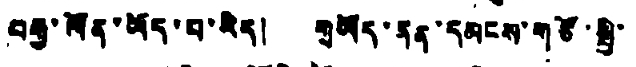བརྒྱ་ལོན་ཡོད་པ་རེད། གཡོད་ནན་དམངས་གཙོ་སྤྱི་
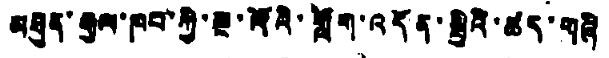མཐུན་རྒྱལ་ཁབ་ཀྱི་སྔ་ལོའི་གློག་འདོན་སྤྱིའི་ཚད་གཞི
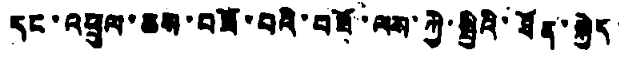དང་འཕྲུལ་ཆས་བཟོ་བའི་བཟོ་ལས་ཀྱི་སྤྱིའི་ཐོན་སྐྱེད་
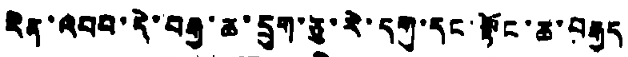རིན་འབབ་དེ་བརྒྱ་ཆ་དྲུག་ཅུ་རེ་དགུ་དང་སྟོང་ཆ་བརྒྱད
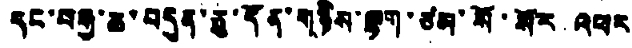དང་བརྒྱ་ཆ་བདུན་ཅུ་དོན་གཉིས་ལྷག་ཙམ་སོ་སོར འཕར
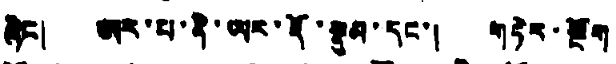ཞིང། ཨར་པ་ནི་ཡར་རྡོ་སྣུམ་དང་། གཏེར་སྔོག
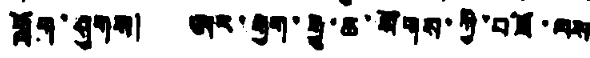གློག་ཤུགས། ཨར་རྒྱག་རྒྱུ་ཆ་སོགས་ཀྱི་བཟོ་ལས
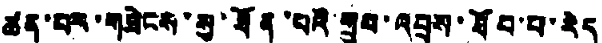ཚན་པར་གཟེངས་སུ་ཐོན་པའི་གྲུབ་འབྲས་ཐོབ་པ་རེད།
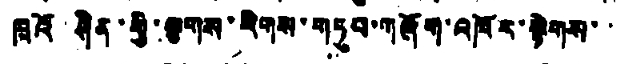ཁྲའོ་ཤིན་གྱི་ལྕགས་རིགས་གཏུབ་གཞོག་འཁོར་སྟེགས་་
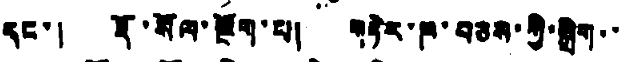དང་། རྡོ་སོལ་སྔོག་པ། གཏེར་ཁ་བཅས་ཀྱི་སྒྲིག་་
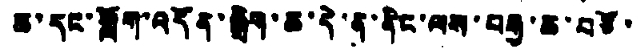ཆ་དང་གློག་འདོན་སྒྲིག་ཆ་དེ་ན་ནིང་ལས་བརྒྱ་ཆ་བཙོ་
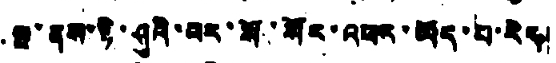ལྔ་ནས་ཉི་ཤུའི་བར་སོ་སོར་འཕར་ཡོད་པ་རེད།
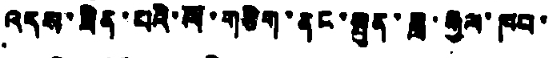འདས་ཟིན་པའི་ལོ་གཅིག་ནང་སྤུན་ཟླ་རྒྱལ་ཁབ་
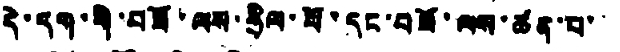དེ་དག་གི་བཟོ་ལས་ཧྲིལ་པོ་དང་བཟོ་ལས་ཚན་པ་
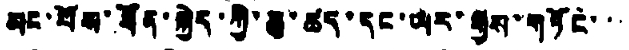མང་པོས་ཐོན་སྐྱེད་ཀྱི་ཆུ་ཚད་དང་ཡར་རྒྱས་གཏོང་་་
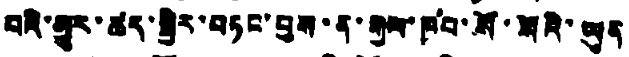བའི་མྱུར་ཚད་སྤྱིར་བཏང་བྱས་ན་རྒྱལ་ཁབ་སོ་སོའི་ཡུན
